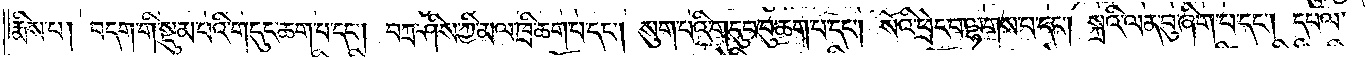རྨིས་པ། བདག་གི་སྡུམ་པའི་གདུང་ཆག་པ་དང༌། བཀྲ་ཤིས་ཀྱི་མལ་ཁྲི་ཆག་པ་དང༌། སུག་པའི་གདུབ་བུ་ཆག་པ་དང༌། སོའི་ཕྲེང་བ་ལྷགས་པ་དང༌། སྐྲའི་ལན་བུ་ཞིག་པ་དང༌། དཔལ་
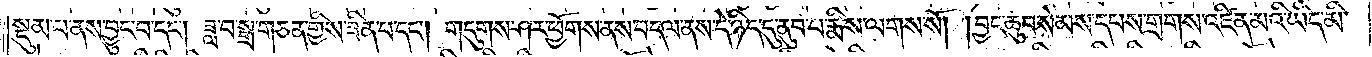སྡུམ་པ་ནས་བྱུང་བ་དང༌། ཟླ་བ་སྒྲ་གཅན་གྱིས་ཟིན་པ་དང༌། གདུགས་ཤར་ཕྱོགས་ནས་བདལ་ནས་དེ་ཉིད་དུ་ནུབ་པ་རྨིས་ལགས་སོ། །བྱང་ཆུབ་སེམས་དཔས་གྲགས་འཛིན་མའི་ཡིད་མི་
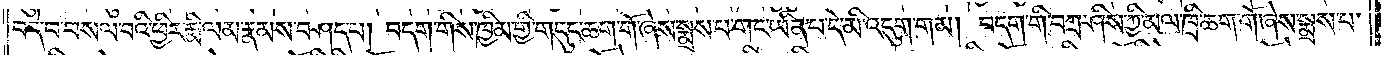བདེ་བ་བསལ་བའི་ཕྱིར་རྨི་ལམ་རྣམས་བཤད་པ། བདག་གིས་ཁྱིམ་གྱི་གདུང་ཆག་གོ་ཞེས་སྨྲས་པ་གང་ཡིན་པ་དེ་མི་འདུག་གམ། བདག་གི་བཀྲ་ཤིས་ཀྱི་མལ་ཁྲི་ཆག་གོ་ཞེས་སྨྲས་པ་
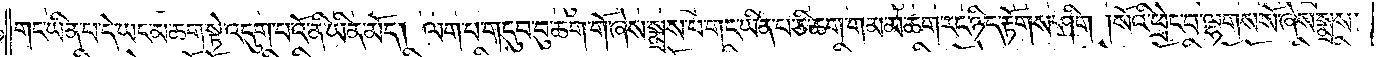གང་ཡིན་པ་དེ་ཡང་མ་ཆག་སྟེ་འདུག་པའོ་ནི་ཡིན་མོད། ལག་པ་གདུབ་བུ་ཆག་གོ་ཞེས་སྨྲས་པ་གང་ཡིན་པ་ཅི་ཆག་གམ་མ་ཆག་རང་ཉིད་རྟོགས་ཤིག །སོའི་ཕྲེང་བ་ལྷགས་སོ་ཞེས་སྨྲས་
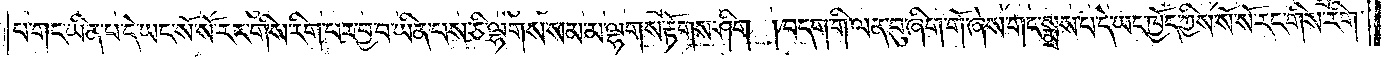པ་གང་ཡིན་པ་དེ་ཡང་སོ་སོ་རང་གིས་རིག་པར་བྱ་བ་ཡིན་པས་ཅི་ལྷགས་སམ་མ་ལྷགས་རྟོགས་ཤིག །བདག་གི་ལན་བུ་ཞིག་གོ་ཞེས་གང་སྨྲས་པ་དེ་ཡང་ཁྱོད་ཀྱིས་སོ་སོ་རང་གིས་རིག་
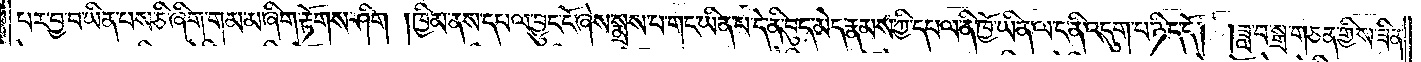པར་བྱ་བ་ཡིན་པས་ཅི་ཞིག་གམ་མ་ཞིག་རྟོགས་ཤིག །ཁྱིམ་ནས་དཔལ་བྱུང་ངོ་ཞེས་སྨྲས་པ་གང་ཡིན་པ་དེ་ནི་བུད་མེད་རྣམས་ཀྱི་དཔལ་ནི་ཁྱོ་ཡིན་ལ་ང་ནི་འདུག་པ་ཉིད་དོ། །ཟླ་བ་སྒྲ་གཅན་གྱིས་ཟིན་
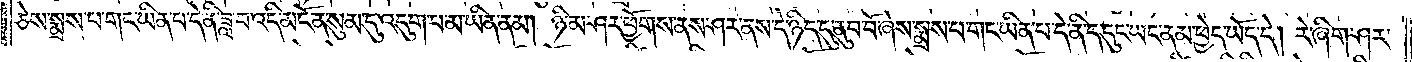ཅེས་སྨྲས་པ་གང་ཡིན་པ་དེ་ནི་ཟླ་བ་འདི་མངོན་སུམ་དུ་འདུག་པ་མ་ཡིན་ནམ། ཉི་མ་ཤར་ཕྱོགས་ནས་ཤར་ནས་དེ་ཉིད་དུ་ནུབ་བོ་ཞེས་སྨྲས་པ་གང་ཡིན་པ་དེ་ནི་ད་དུང་ཡང་ནམ་ཕྱེད་ཡོད་དེ། རེ་ཞིག་ཤར་
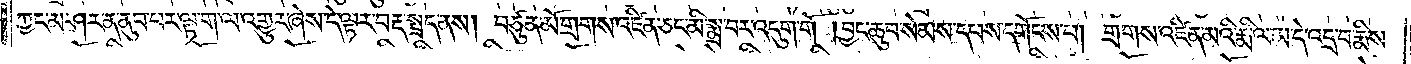ཀྱང་མ་ཤར་ན་ནུབ་པར་ལྟ་ག་ལ་འགྱུར་ཞེས་དེ་ལྟར་བརྡ་སྤྲད་ནས། བཙུན་མོ་གྲགས་འཛིན་ཅང་མི་སྨྲ་བར་འདུག་གོ །བྱང་ཆུབ་སེམས་དཔས་དགོངས་པ། གྲགས་འཛིན་མའི་རྨི་ལམ་དེ་འདྲ་བ་རྨིས་
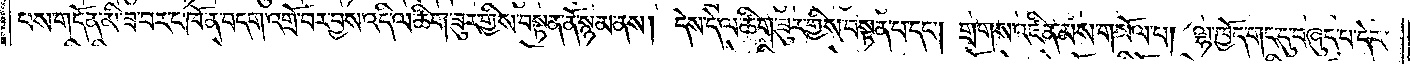པས་གདོན་མི་ཟ་བར་ང་ཁོ་ན་བདག་འགྲོ་བར་བྱས་འདི་ལ་ཚིག་ཟུར་གྱིས་བསྟན་ནོ་སྙམ་ནས། དེས་དེ་ལ་ཚིག་ཟུར་གྱིས་བསྟན་པ་དང༌། གྲགས་འཛིན་མས་གསོལ་པ། ལྷ་ཁྱོད་གང་དུ་བཞུད་པ་དེར་
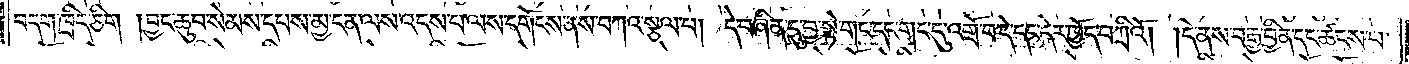བདག་ཁྲིད་ཅིག །བྱང་ཆུབ་སེམས་དཔས་མྱ་ངན་ལས་འདས་པ་ལས་དགོངས་ནས་བཀའ་སྩལ་པ། དེ་བཞིན་དུ་བྱ་སྟེ་གང་དང་གང་དུ་འགྲོ་བ་དེ་དང་དེར་ཁྱོད་བཀྲིའོ། །དེ་ནས་བརྒྱ་བྱིན་དང་ཚངས་པ་
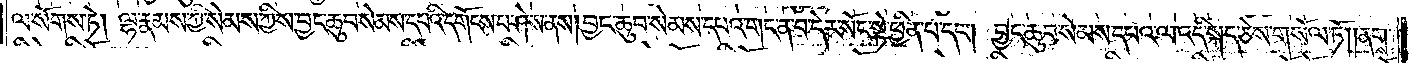ལ་སོགས་ཏེ། ལྷ་རྣམས་ཀྱི་སེམས་ཀྱིས་བྱང་ཆུབ་སེམས་དཔའི་དགོངས་པ་ཤེས་ནས། བྱང་ཆུབ་སེམས་དཔའ་གང་ན་བ་དེར་སོང་སྟེ་ཕྱིན་པ་དང༌། བྱང་ཆུབ་སེམས་དཔའ་ལ་འདི་སྐད་ཅེས་གསོལ་ཏོ། །ནགས་
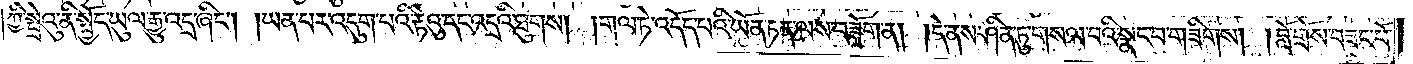ཀྱི་སྤྲེའུ་ནི་སྤྱོད་ཡུལ་རྒྱུ་འདྲ་ཞིང༌། །ཡན་པར་འདུག་པའི་རྟེའུ་དང་འདྲའི་ཐུགས། །གལ་ཏེ་འདོད་པའི་ཡོན་ཏན་ལས་བཟློག་ན། །དེ་ནས་ཤིན་ཏུ་གསལ་བའི་སྣང་བ་གཟིགས། །བློ་གྲོས་བཟང་པོ་
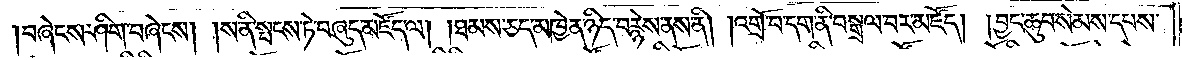།བཞེངས་ཤིག་བཞེངས། །ས་ནི་སྤངས་ཏེ་བཞུད་མཛོད་ལ། །ཐམས་ཅད་མཁྱེན་ཉིད་བརྙེས་ནས་ནི། །འགྲོ་བ་དག་ནི་བསྒྲལ་བར་མཛོད། །བྱང་ཆུབ་སེམས་དཔས་
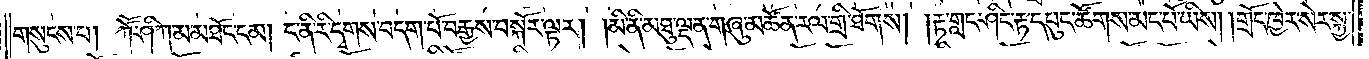གསུངས་པ། ཀཽ་ཤི་ཀ་མ་མཐོང་ངམ། ང་ནི་རི་དྭགས་བདག་པོ་བརྒྱས་བསྐོར་ལྟར། །མི་ནི་མཐུ་ལྡན་གཞུ་མཚོན་རལ་གྲི་ཐོགས། །རྟ་གླང་ཤིང་རྟ་དཔུང་ཚོགས་མང་པོ་ཡིས། །གྲོང་ཁྱེར་སེར་སྐྱ་
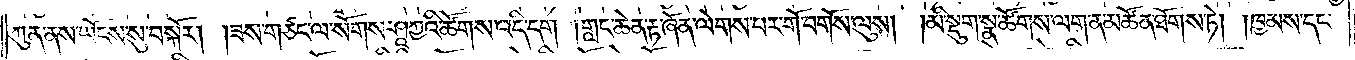ཀུན་ནས་ཡོངས་སུ་བསྐོར། །ཟས་གཙང་ལ་སོགས་ཤཱཀྱའི་ཚོགས་འདི་དག །གླང་ཆེན་རྟ་ཞོན་ལེགས་པར་གོ་བགོས་ལུས། །མི་སྡུག་སྣ་ཚོགས་ལག་ན་མཚོན་ཐོགས་ཏེ། །ཁྱམས་དང་
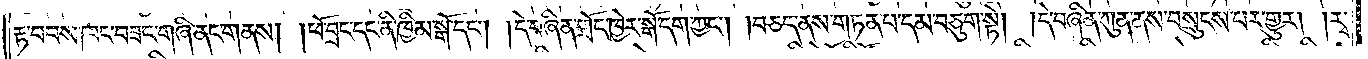རྟ་བབས་ཁང་བཟང་གཞི་ནང་གནས། །ཕོ་བྲང་དང་ནི་ཁྱིམ་སྒོ་དང༌། །དེ་བཞིན་གྲོང་ཁྱེར་སྒོ་དག་ཀྱང༌། །བཅད་ནས་གཏན་པ་དམ་བཅུག་སྟེ། །དེ་བཞིན་ཀུན་ནས་བསྲུངས་པར་གྱུར། །རྭ་
